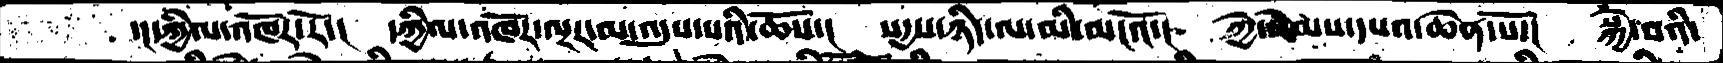་།དཀྱིལ་འཁོར་རོ་།  དཀྱིལ་འཁོར་ལྔར་མ་འདུས་པའི་ཆོས་།  སདྱས་ཉིད་ལ་མི་མངའོ་།  ཀྱེ་སེམས་དཔའ་ཆེན་པོ་།  སྐྱེ་བའི་
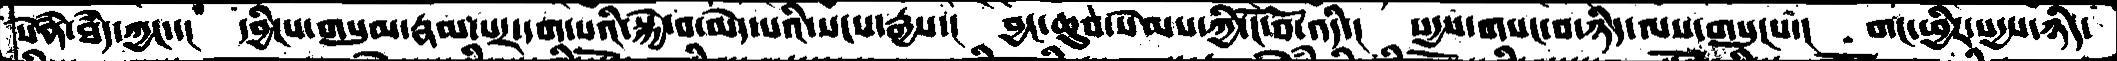སེནཾ་ཐཾད་ཀྱང་།  དབྱིངས་གསུམ་རྣམ་པར་དག་པའི་སྐྱེ་བ་མེད་པའི་སངས་རྒྱས་།  བྱང་ཆུབ་སེམས་ཀྱི་ངོ་བོ་འདི་།  སདྱས་གསང་བ་ཉིད་ལས་གསུངས་།  གང་ཕྱིར་སདྱས་ཉིད་
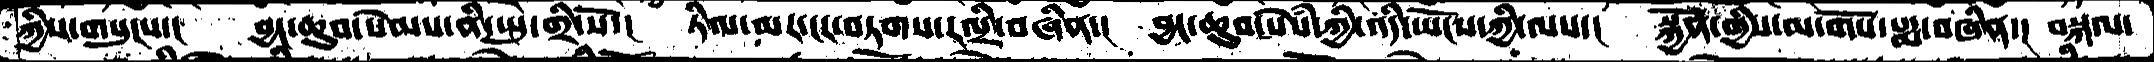ཀྱིས་གསུངས་།  བྱང་ཆུབ་སེམས་ནི་སྤུ་གྲི་སོ་།  ཏིལ་མར་ངང་བཏགས་རལྲི་བཞིན་།  བྱང་ཆུབ་སེསཾ་ཀྱི་འདི་ཡོངས་ཀྱི་ལས་།  སྐྱོན་གྱི་མ་གོས་པདྨ་བཞིན་།  བསྐལ་
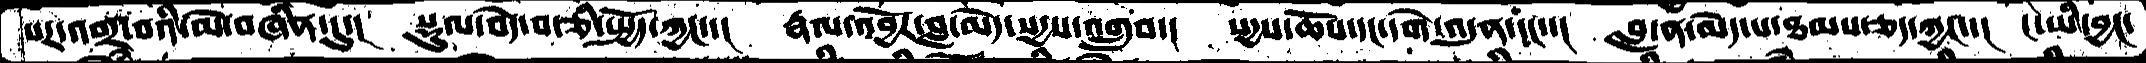པར་འབར་བའི་མེ་བཞིན་དུ་།  སྡུལ་བདེ་བ་ཅི་སྤྱོད་ཀྱང་་།    རྣལ་འབྱོར་བླ་མེད་སདྱས་འགྲུབ་།།    སདྱས་ཆོས་དང་དགེ་འདུན་དང་།  བླ་ན་མེད་པ་ཐམས་ཅད་ཀྱང་་།   ང་ཡི་བྱང་
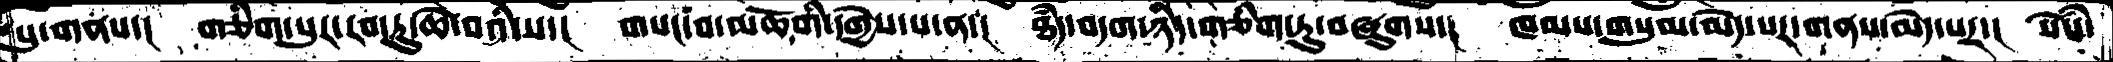པུ་གནས་།  གཅིག་པུར་རབ་ཏུ་ཆེ་བའི་ས་།   གསང་བ་མཆོགི་དགྱེས་པ་ན་།   ཐཾད་བདག་ཉིད་གཅིག་ཏུ་བཞུགས་།   ཁམས་གསུམ་མེད་པར་གནས་མེད་པར་།  སེསཾ།
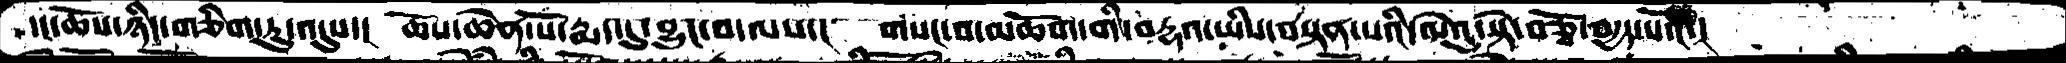དང་ཆོས་ཉིད་གཅིག་ཏུ་འདུས་།  ཆོས་ཆེན་པོ་རྨད་དུ་བྱུང་བ་ལས་།   གསང་བ་མཆོག་གི་བརྡའ་ཡིས་བསྟན་པའི་ལེའུ་སྟེ་བཅྭོ་བདྱད་པའོ་།
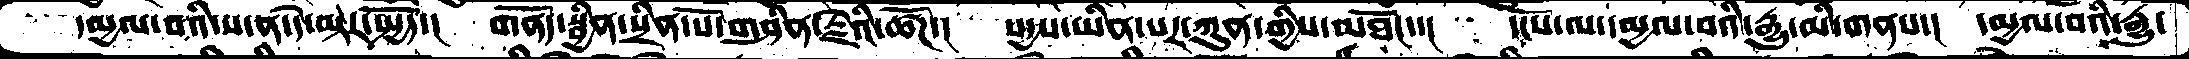དམྱལ་བའི་ས་ན་དེ་ལྟར་སྤྱོད་།  གནོད་སྦྱིན་སྲིན་པོ་གཤིན་རྗེའི་ཚོཌ་།  སདྱས་ཡིན་པར་ཀུན་གྱིས་མཐོང་།  དངོས་ལ་དམྱལ་བའི་རྒྱུ་མི་གནས་།  དམྱལ་བའི་རྒྱུ་
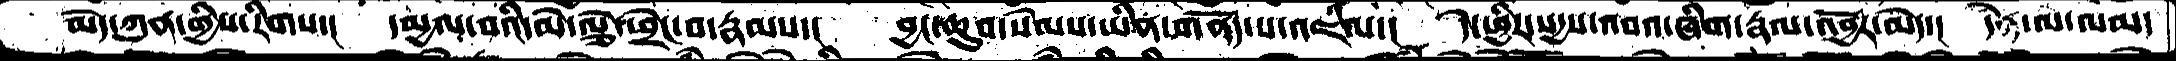མེད་ཀུན་གྱིས་རིགས་།  དམྱལ་བའི་མེ་ལྕེ་ཕྲེང་བ་རྣམས་།  བྱང་ཆུབ་སེམས་ཡིན་གནོད་པ་འཇིལ་།  དེ་ཕྱིར་སདྱས་འབའ་ཞིག་རྣལ་འབྱོར་མེད་།  དེན་ལ་ལམ་
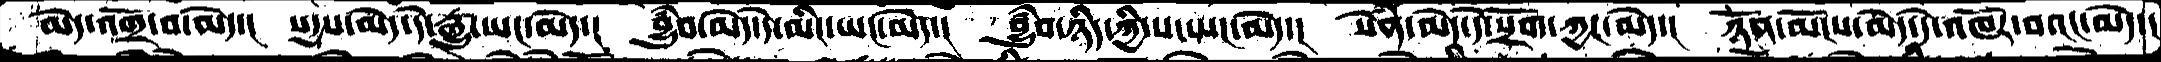མེད་འགྲོ་བ་མེད་།  སདྱས་མེད་དེ་རྒྱུ་ཡང་མེད་།  བྱུཾབ་མེད་དེ་མིང་ཡང་མེད་།  བྱུཾབ་ཉིད་ཀྱི་ས་ཡང་མེད་།  སེནཾ་མེད་དེ་སྲོག་ཀྱང་མེད་།  ཉོན་མོངས་མེད་དེ་འཁོར་བའང་མེད་།
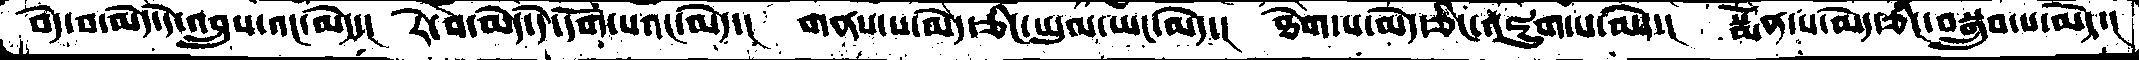བདེ་བ་མེད་དེ་འབྲུས་འང་མེད་།  རེ་བ་མེད་དེ་དོག་པའང་མེད་།  གནས་ས་མེད་ཅིང་ཡུལ་ཡང་མེད་།  ཐེག་པ་མེད་ཅིང་འཇུག་པ་མེད་།  སྨོན་པ་མེད་ཅིང་བསྒྲུབ་པ་མེད་།
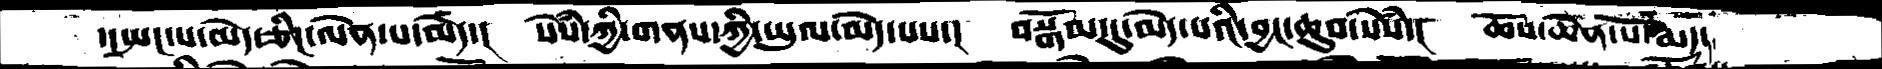དངསྤང་པ་མེད་ཅིང་ལེན་པ་མེད་།   སེཾས་ཀྱི་གནས་ཀྱི་ཡུལ་མེད་པས་།   བསྒོམ་དུ་མེད་པའི་བྱང་ཆུབ་སེཾས་།  ཆོས་ཆེན་པོ་རྨད་
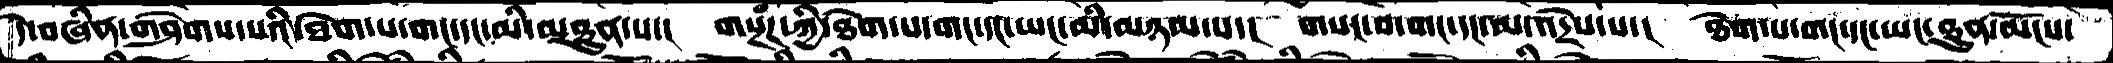དེ་བཞིན་གཤེགས་པའི་ཐེག་པ་གང་དང་མི་མཐུན་པ་།   གསྔཾཌ་ཀྱི་ཐེག་པ་གང་དང་ཡང་མི་མཉམ་པ་།  གསང་བ་གང་དང་མ་འདྲེས་པ་།   ཐེག་པ་གང་དང་ཡང་ཐུན་མོངས་
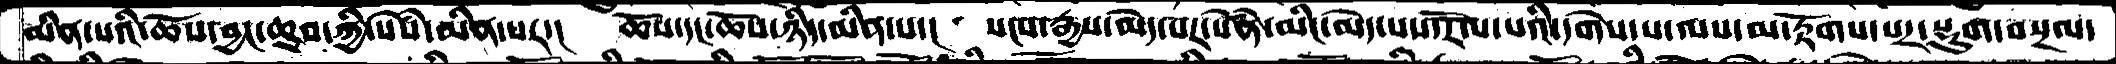མིན་པའི་ཆོས་བྱང་ཆུབ་ཀྱི་སེསཾ་མིན་པར་།  ཆོས་དང་ཆོས་ཉིད་མིན་པ་།  སངས་རྒྱས་མེད་པར་སེནཾ་མིང་མདེ་པས་རོལ་པའི་དགེས་པ་ལས་མ་རྟོགས་པར་སྡུག་བསྔལ་
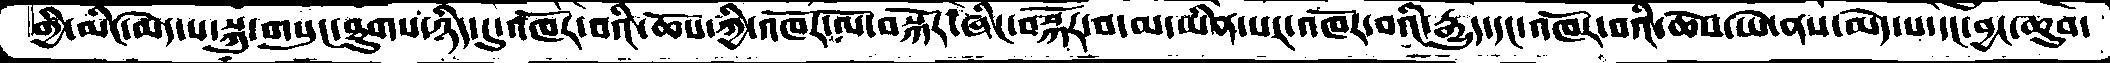གྱི་མིང་མེད་པ་སྐུ་གསུང་ཐུགས་ཉིད་དུ་འཁོར་བའི་ཆོས་ཀྱི་འཁོར་ལོ་བསྐོར་ཞིང་བསྐོར་བ་མ་ཡིན་པར་འཁོར་བའི་རྒྱུད་དང་འཁོར་བའི་ཆོས་ཡེ་ནས་མེད་པ་དང་བྱང་ཆུབ་
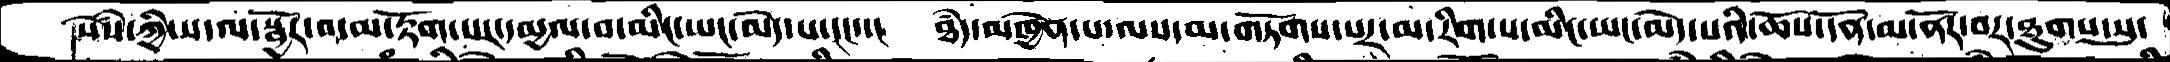སེཾས་ཀྱི་ས་ལ་སྦྱོར་བ་མ་རྟོགས་པར་དམྱལ་བ་མིང་ཡང་མེད་པ་དང་་།   ཐཾད་མཁྱེན་པ་ལས་མ་གཏོགས་པར་མ་རིག་པ་མིང་ཡང་མེད་པའི་ཆོས་དོན་མ་ནོར་བར་ཐུགས་སུ་
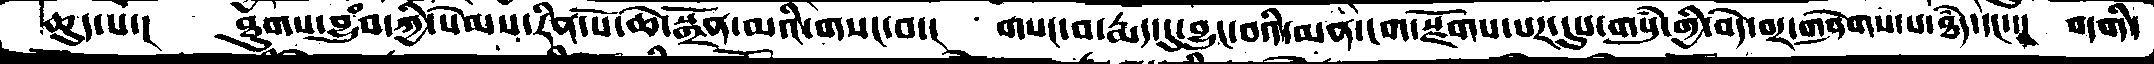ཆུད་པ་།   ཐུགས་བྱུཾབ་ཀྱི་སེམས་རིན་པོ་ཆེ་སྒྲོན་མའི་གསང་བ་།   གསང་བ་རྨད་དུ་་བྱུང་བའི་མན་ངག་སྫོགས་པར་དུས་གསུཾ་གྱྱི་བདེ་བར་གཤེགས་པ་ཐཾད་དང་་།   བདགི་
